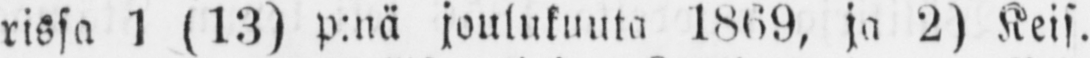rissa 1 (13) p:nä joulukuuta 1869, ja 2) Keis.
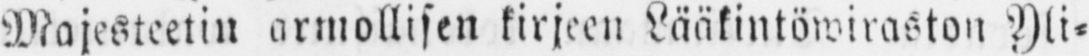Majesteetin armollisen kirjeen Lääkintöwiraston Yli-
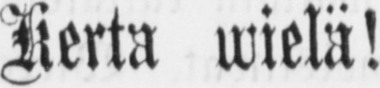Kerta wielä!
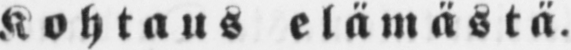Kohtaus elämästä.
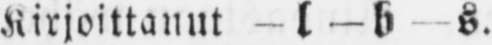Kirjoittanut — 1 — b — s.
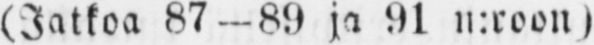(Jatkoa 87 — 89 ja 91 n:roon).
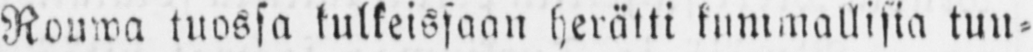Rouwa tuossa tulkeissaan herätti kummallisia tun-
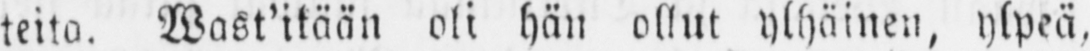teita. Wast'itään oli hän ollut ylhäinen, ylpeä,
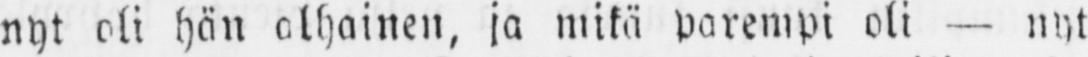nyt oli hän alhainen, ja mikä parempi oli — nyt
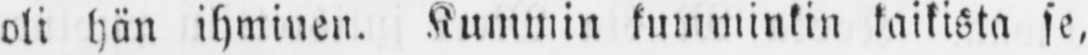oli hän ihminen, Kummin kumminkin kaikista se,
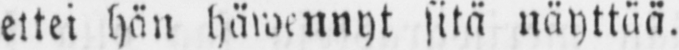ettei hän häwennyt sitä näyttää.
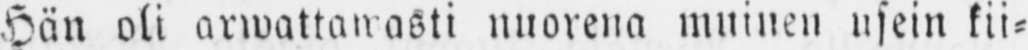Hän oli arwattawasti nuorena muinen usein kii-
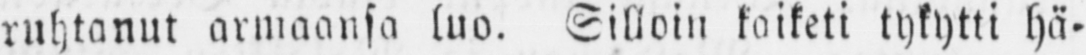ruhtanut armaansa luo. Silloin kaiketi tykytti hä-
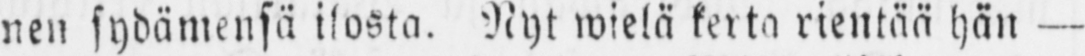nen sydämensä ilosta. Nyt wielä kerta rientää hän —
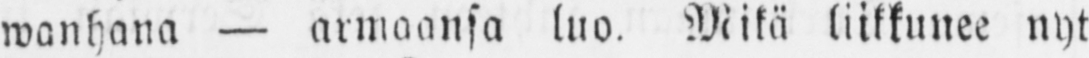wanhana — armaansa luo. Mikä liikkunee nyt
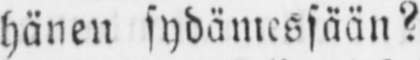hänen sydämessään?
